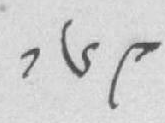༡༦༩
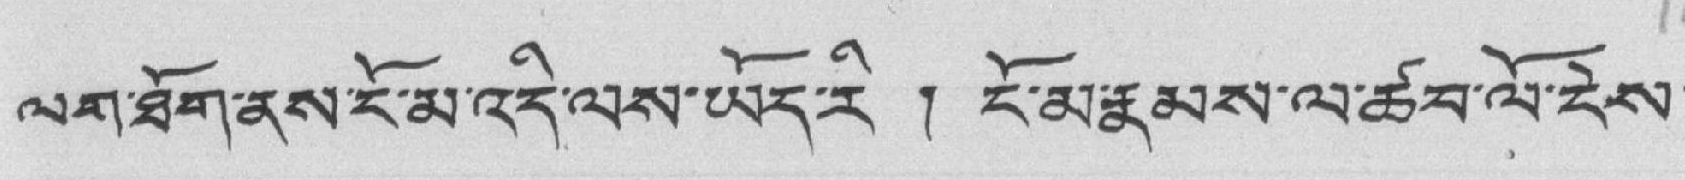ལག་ཐོག་ནས་ངོ་མ་འདི་ལས་ཡོད་རི ། ངོ་མ་རྣམས་ལ་ཚབ་ལོ་ངེས་
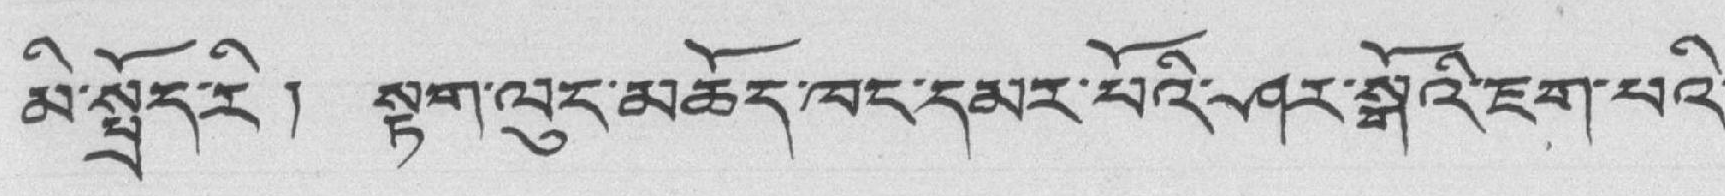མི་སྤྲོད་རི། སྟག་ལུང་མཆོད་ཁང་དམར་པོའི་ཤར་སྒོའི་ཇག་པའི་
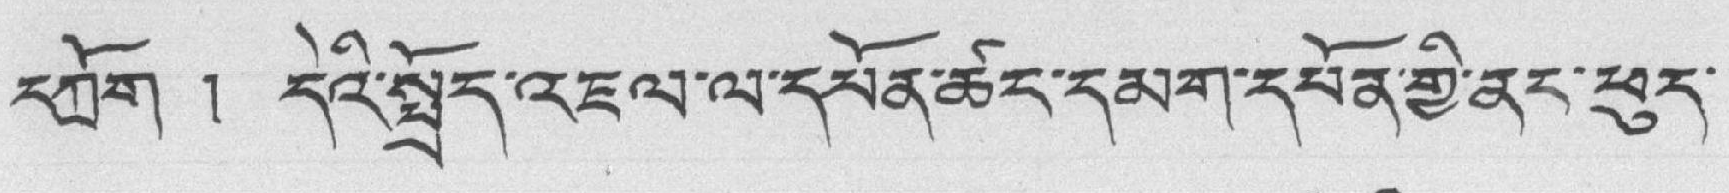དཀྲོག ། དེའི་སྤྲོད་འཇལ་ལ་དཔོན་ཚང་དམག་དཔོན་གྱི་ནང་ཕུད་
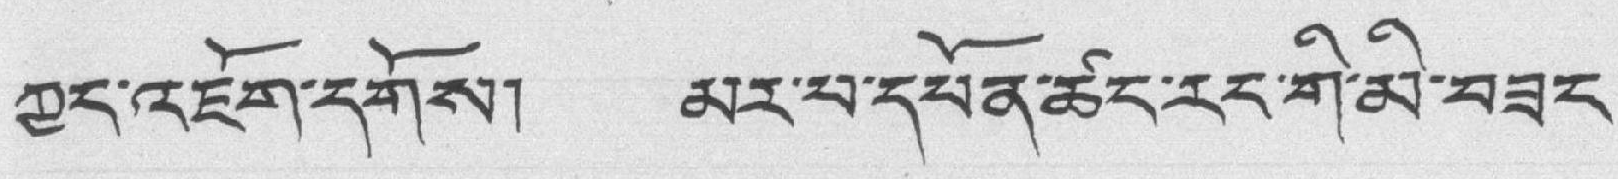ཀྱང་འཇོག་དགོས། མར་པ་དཔན་ཚང་རང་གི་མི་བཟང་
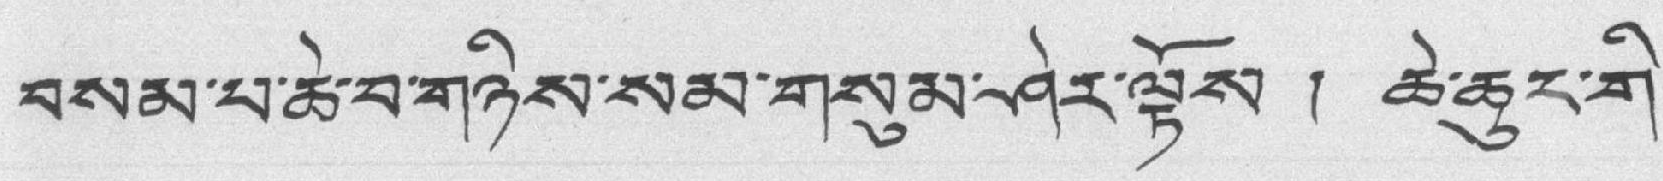བསམ་པ་ཆེ་བ་གཉིས་སམ་གསུམ་ཤེར་ལྟོས ། ཆེ་ཆུང་གི་
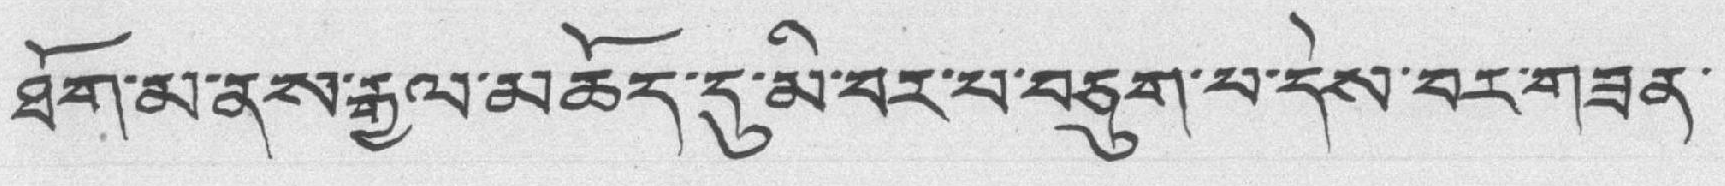ཐོག་མ་ནས་རྒྱལ་མཆོད་དུ་མི་བར་པ་བཅུག་པ་དེས་བར་གཟན་
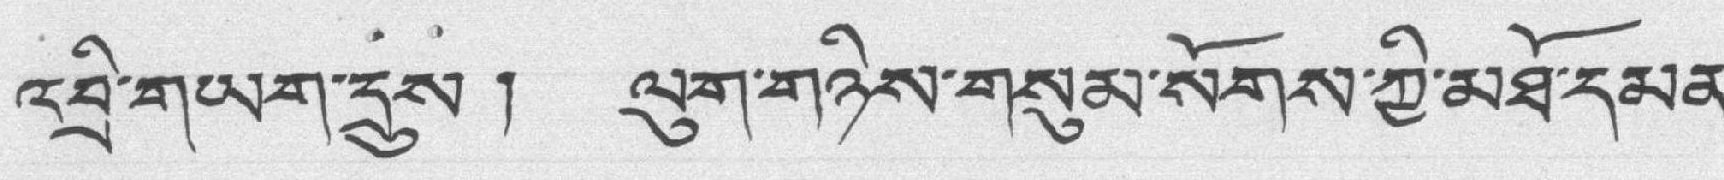འབྲི་གཡག་དྲུས ། ལུག་གཉིས་གསུམ་སོགས་ཀྱི་མཐོ་དམན་
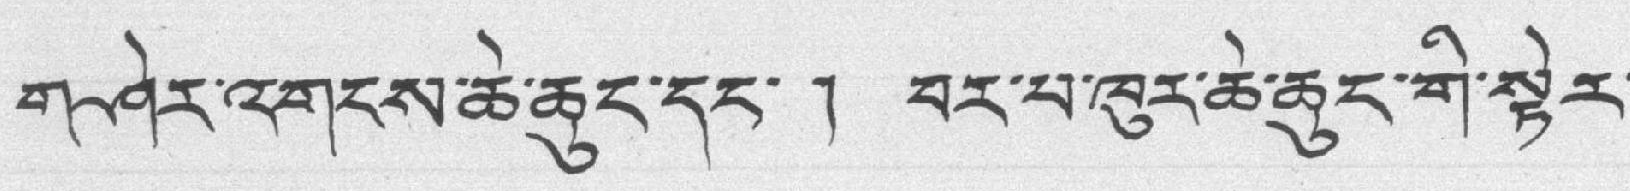གཤེར་འགངས་ཆེ་ཆུང་དང་ ། བར་པ་ཁུར་ཆེ་ཆུང་གི་སྟེར་
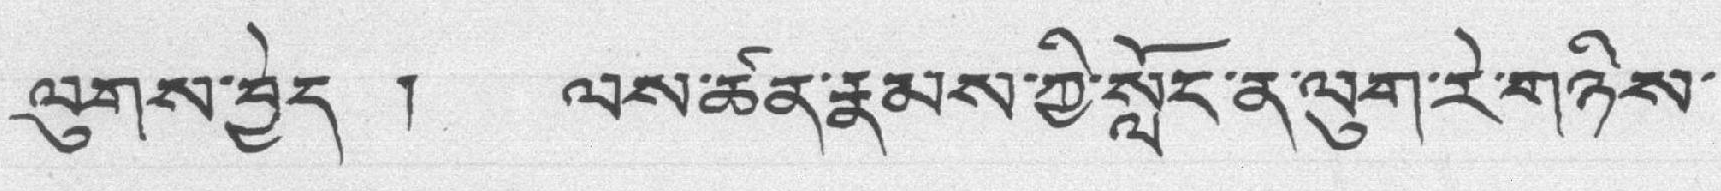ལུགས་བྱེད ། ལས་ཚན་རྣམས་ཀྱི་སློང་ན་ལུག་རེ་གཉིས་
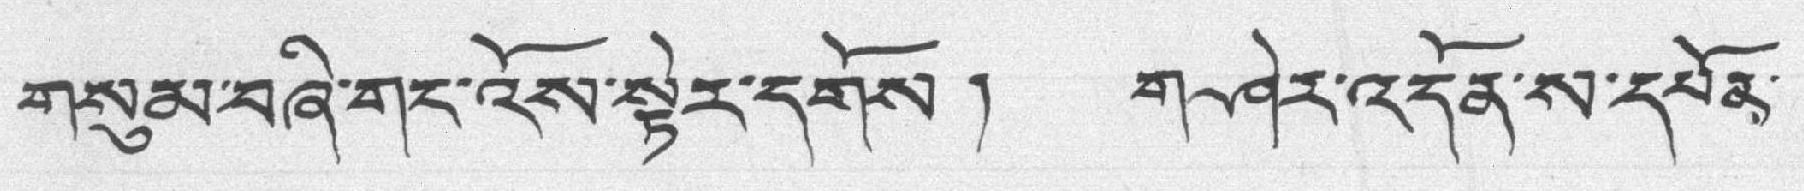གསུམ་བཞི་གང་འོས་སྟེར་དགོས། གཤེར་འདོན་ས་དཔོན་
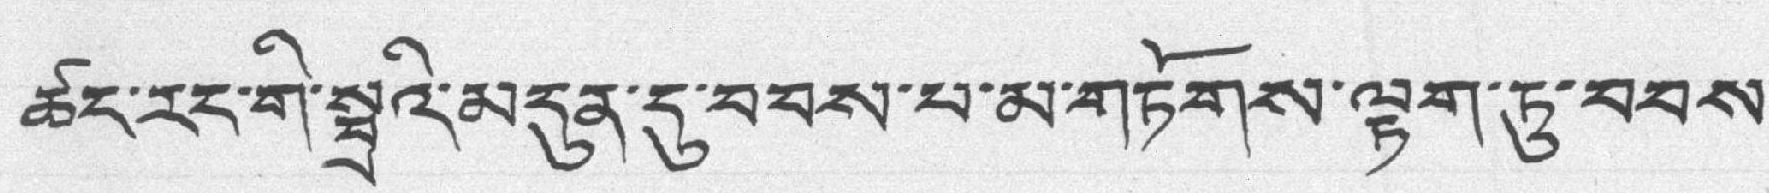ཚང་རང་གི་སྦྲའི་མདུན་དུ་བབས་པ་མ་གཏོགས་ལྟག་ཏུ་བབས་
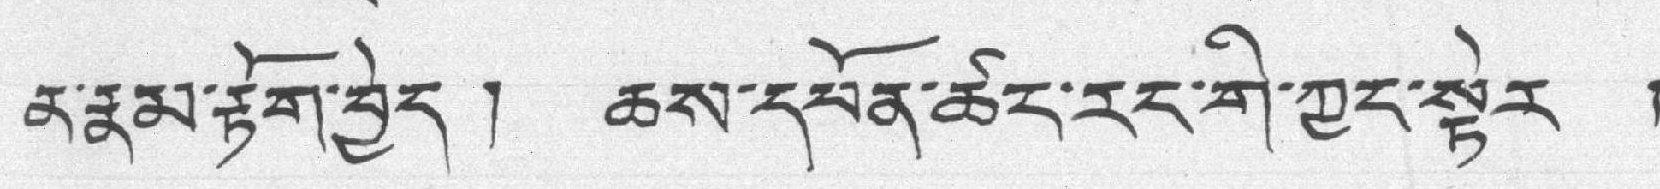ན་རྣམ་རྟོག་བྱེད ། ཆས་དཔོན་ཚང་རང་གི་ཀྱང་སྟེར །
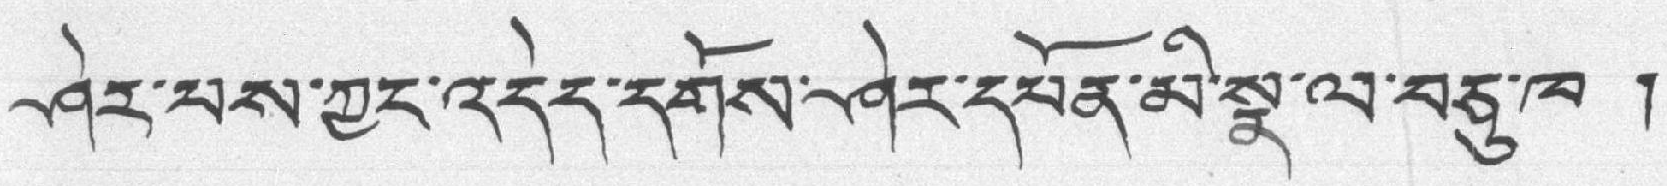ཤེར་པས་ཀྱང་འདེད་དགོས་ཤེར་དཔོན་མི་སྣ་ལ་བཅུ་ཁ །
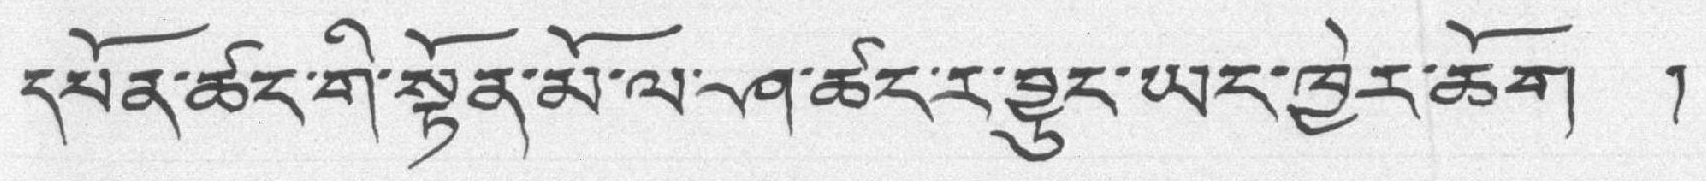དཔོན་ཚང་གི་སྟོན་མོ་ལ་ཤ་ཚང་ར་བྱུང་ཡང་ཁྱེར་ཆོག །
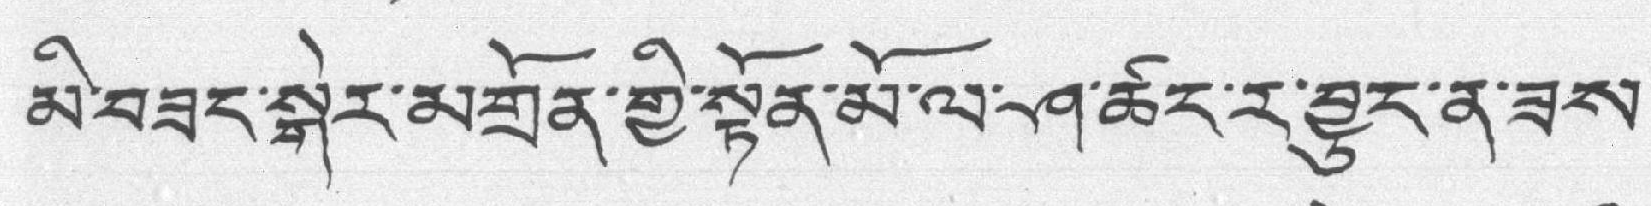མི་བཟང་སྒེར་མགྲོན་གྱི་སྟོན་མོ་ལ་ཤ་ཚང་ར་བྱུང་ན་ཟས་
